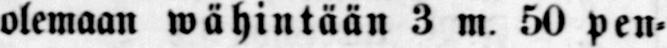olemaan wähintään 3 m. 50 pen-
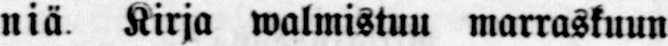niä. Kirja walmistuu marraskuun
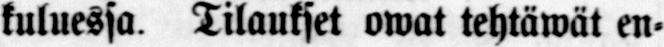kuluessa. Tilaukset owat tehtäwät en-
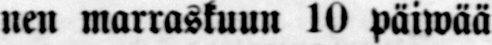nen marraskuun lO päiwää
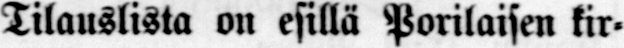Tilauslista on esillä Porilaisen kir-
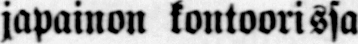japainon kontoorissa
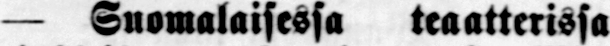— Suomalaisessa teaatterissa
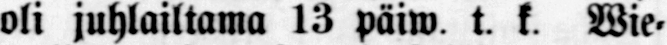oli juhlailtama 13 päiw t. k. Wie-
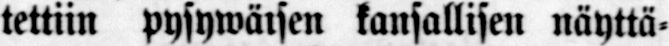lettiin pysywäisen kansallisen näyttä-
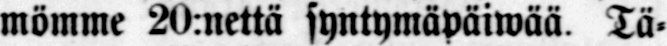mömme 20:nettä syntymäpäiwää. Tä-
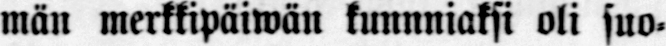män merkkipäiwän kunnniaksi oli suo-
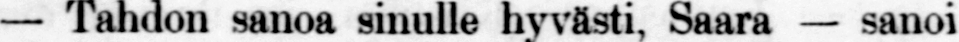— Tahdon sanoa sinulle hyvästi, Saara — sanoi
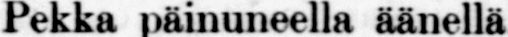Pekka päinuneella äänellä.
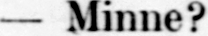— Matkustatko pois?
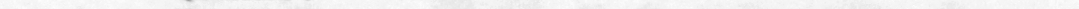— Matkustan.
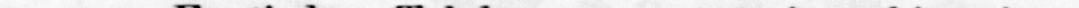— Minne?
